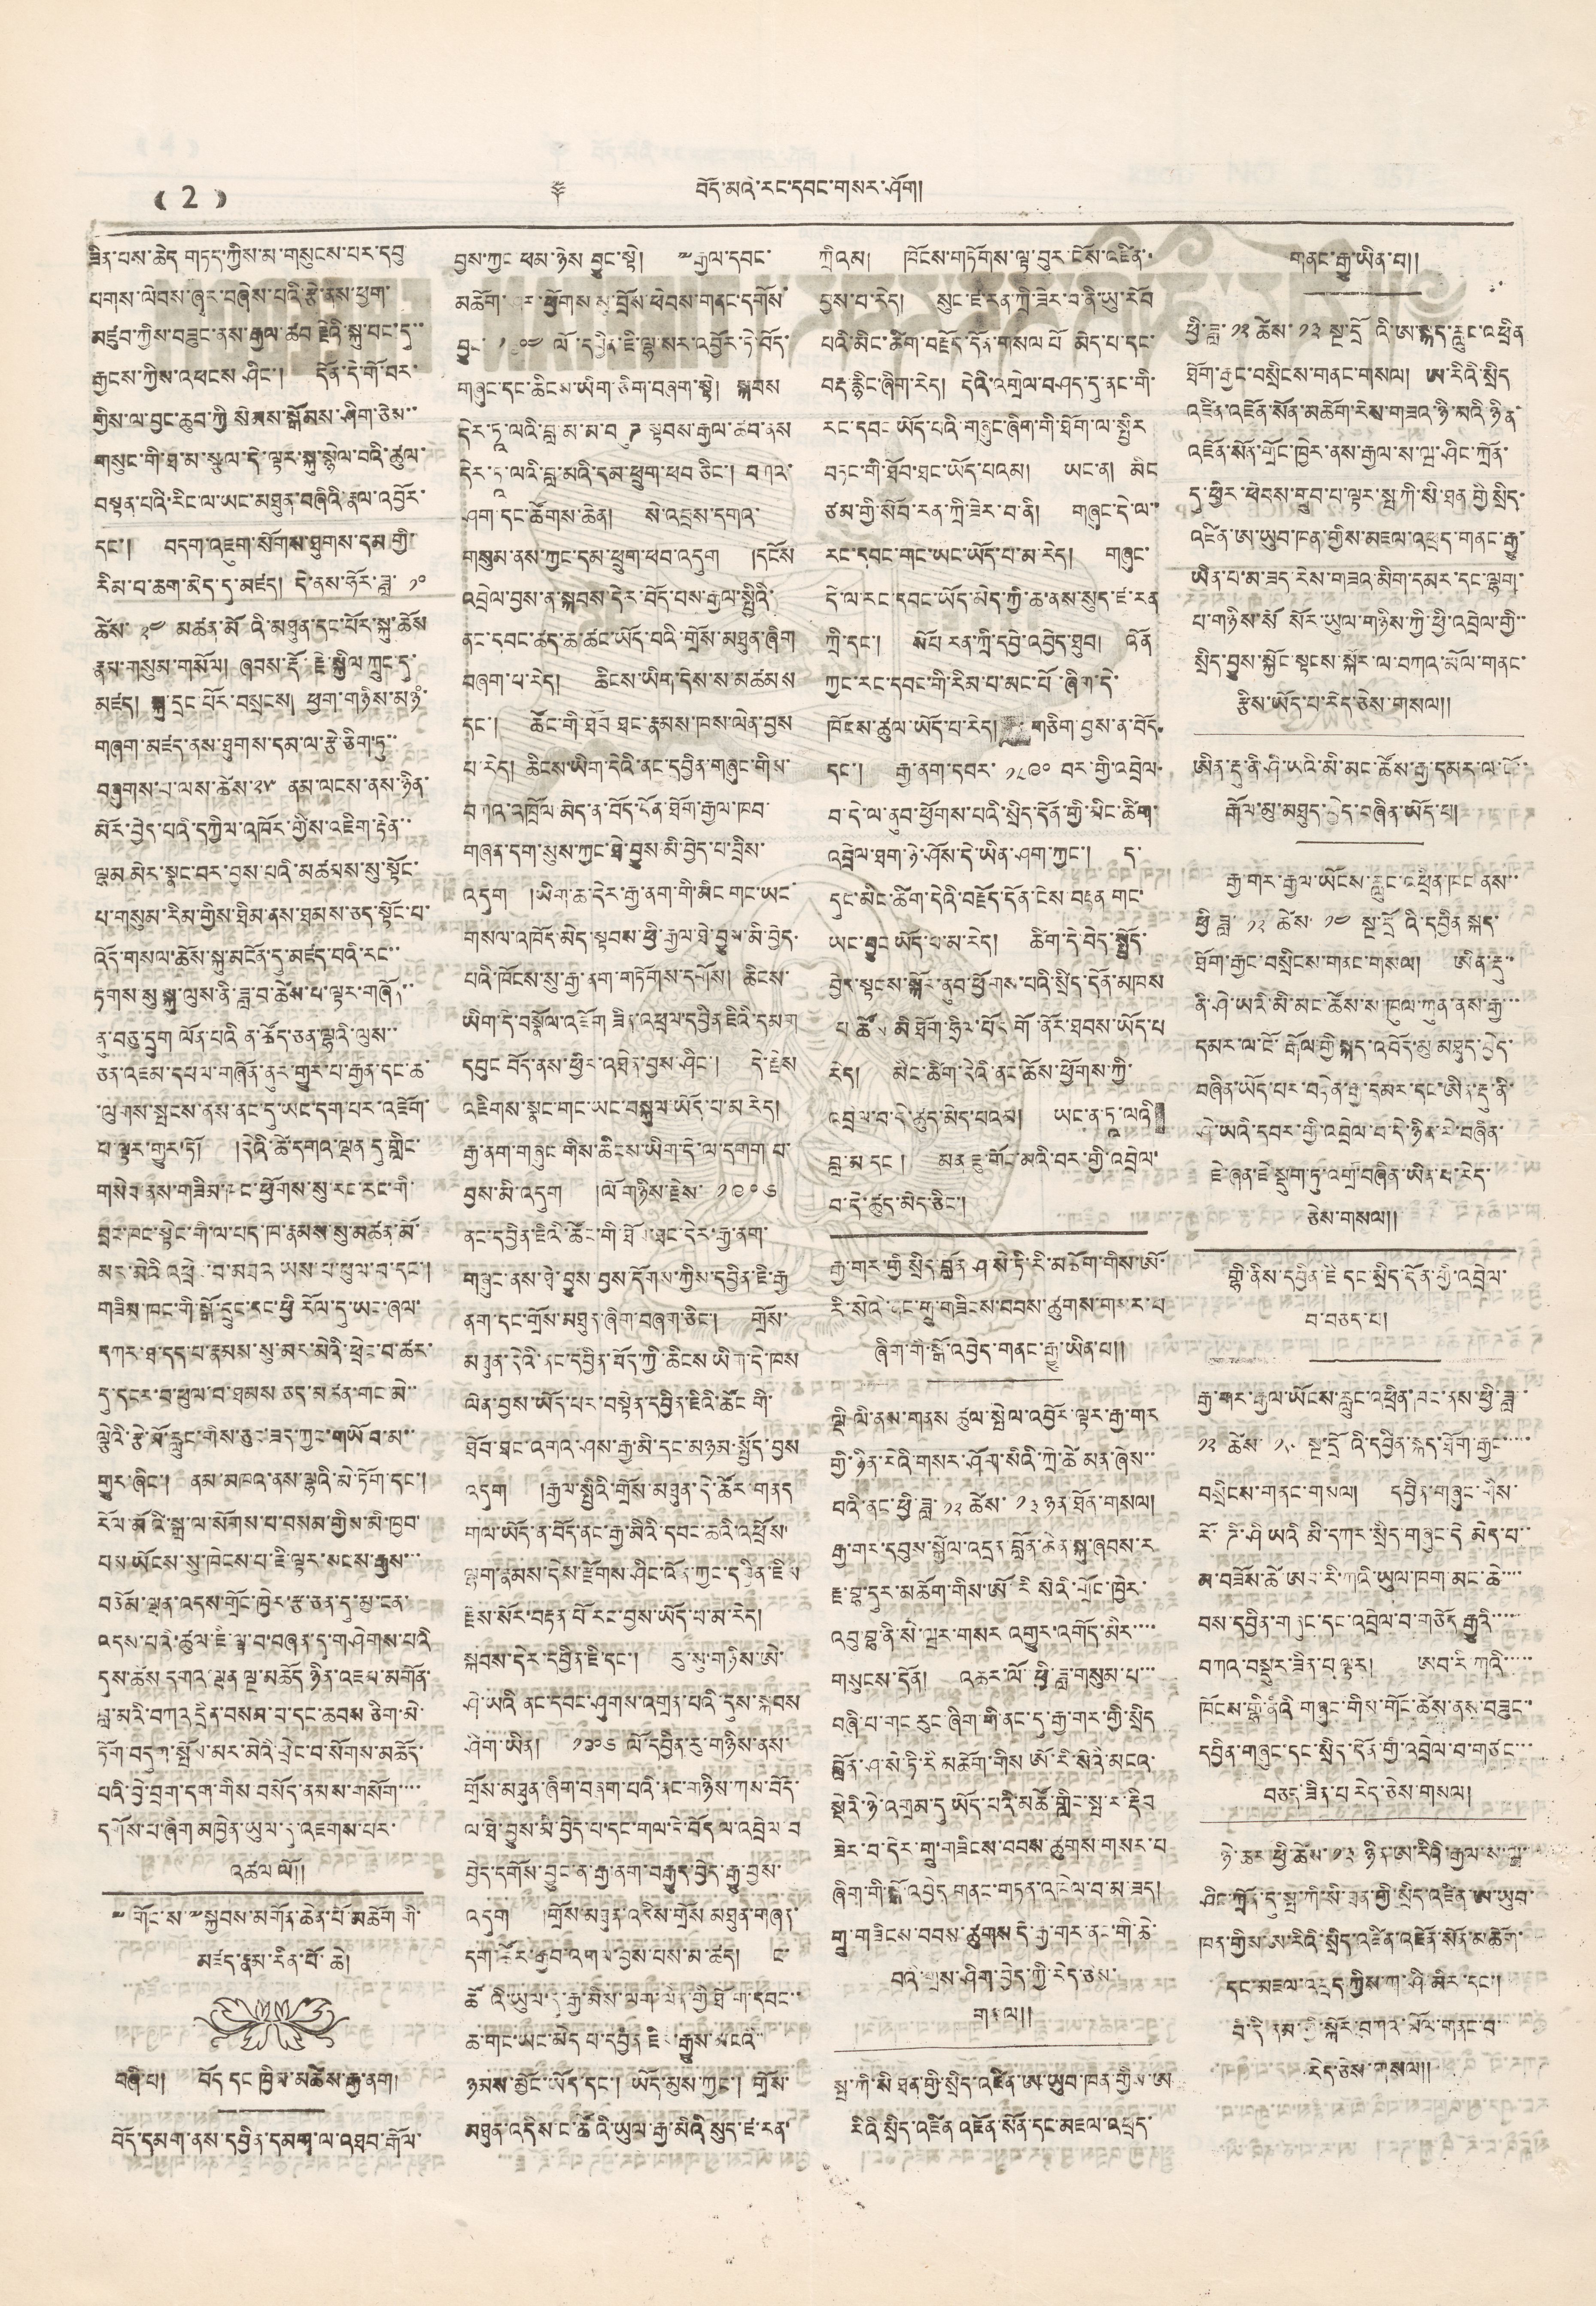(( 2 )) ༈ བོད་མའི་རང་དབང་གསར་ཤོག།
ཟིན་པས་ཆེད གཏད་ཀྱིས་མ་གསུངས་པར་དབུ་
པགས་ལེབས་ཞྭར་བཞེས་པའི་རྩེ་ནས་ཕྱག་
མཛུབ་ཀྱིས་བཟུང་ནས་རྒྱལ་ཚབ རྗེའི་སྐུ་པང་དུ་་
རྒྱངས་ཀྱིས་འཕངས ཤིང་། དོན་དེ་གོ་བར་
གྱིས་ལ་བྱང་ཆུབ་ཀྱི སེམས་སྒོམས་ཤིག་ཅེས་་
གསུང་གི་ཐ་མ་སྩལ་དེ་ལྟར་སྐུ་སྙེལ་བའི་ཚུལ་
བསྟན་པའི་རིང་ལ་ཡང་མཐུན་བཞིའི་རྣམ་འབྱོར་
དང་། བདག་འཇུག་སོགས་ཐུགས་དམ གྱི་
རིམ་པ་ཆག་མེད་དུ་མཛད། དེ་ནས་ཧོར་ཟླ་ ༡༠
ཚེས་ ༢༤ མཚམ་མོའི་མཐུན་དང་པོར་སྐུ་ཆོས
རྣམ་གསུམ་གསོལ། ཞབས་རྡོ་རྗེ་སྐྱིལ ཀྲུང་དུ་
མཛད། སྐུ་དྲང་པོར་བསྲངས། ཕྱག་གཉིས་མཉཾ་
གཞག་མཛད་ནས་ཐུགས་དམ་ལ་རྩེ་ཅིག་ཏུ་་
བཞུགས་པ་ལས་ཚེས་༢༥ ནམ་ལངས་ནས་ཉིན་
མོར་བྱེད་པའི་དཀྱིལ་འཁོར་གྱིས་འཇིག་རྟེན་་
ལྷམ མེར་སྣང་བར་བྱས་པའི་མཚམས་སུ་སྟོང་
པ་གསུམ་རིམ་གྱིས་ཐིམ་ནས་ཐམས་ཅད་སྟོང་པ་
འོད་གསལ་ཆོས་སྐུ་མངོན་དུ་མཛད་བའི་རང་་
རྟགས་སུ་སྐུ་ལུས་ནི་ཟླ་བ་ཚེས་པ་ལྟར་གཞོན་་
ནུ་བཅུ་དྲུག ལོན་པའི ན་ཚོད་ཅན་ལྷའི་ལུས་་
ཅན་འཇམ་དཔལ་གཞོན་ནུར་གྱུར་པ་རྒྱན་དང་ཆ་
་ལུགས་སྤངས་ནས་ནང་དུ་ཡང་དག་པར་འཇོག་
པ་ལྟར་གྱུར་ཏོ། །དེའི་ཚེ་དགའ་ལྡན དུ་གླིང་
གསེབ་ནས་གཟིམ་ཁང་ཕྱོགས་སུ་རང་རང་གི་
བྲང་ཁང་སྟེང་གི་ལ་པད་ཁ་རྣམས་སུ་མཚན་མོ་
མར་མེའི་འཕྲེང་བ་མཐའ ཡས་པ་ཕུལ་བ་དང་།
གཟིམ་ཁང་གི་སྒོ་དྲུང་དང་ཕྱི རོལ་དུ་ཡང་ཞལ་
དཀར་ཐ་དད་པ་རྣམས་སུ་མར་མེའི་ཕྲེང་བ་ཚར་
དུ་དངར་བ་ཕུལ་བ་ཐམས ཅད་མཚན་གང་མེ་་
ལྕེའི་རྩེ་མོ་རླུང་གིས་ཅུང་ཟད་ཀྱང་གཡོ བ་མ་་
གྱུར་ཞིང་། ནམ་མཁའ་ནས་ལྷའི་མེ་ཏོག་དང་།
རོལ་མོའི་སྒྲ་ལ་སོགས་པ་བསམ་གྱིས་མི་ཁྱབ་
པས་ཡོངས་སུ་ཁེངས་པ་ཇི་ལྟར་སངས་རྒྱས་་་
བཅོམ་ལྡན་འདས་གྲོང་ཁྱེར་རྩ་ཅན་དུ་མྱ་ངན་
འདས་པའི་ཚུལ་ཇི་ལྟ་བ་བཞན་དུ་གཤེགས་པའི་
དུས་ཚེས་དགའ་ལྡན ལྔ་མཆོད ཉིན་འཇམ་མགོན་
བླ་མའི་བཀའ དྲིན་བསམ་པ་དང་ཆབས ཅིག་མེ་
ཏོག་བདུག་སྤོམ་མར་མེའི་ཕྲེང་བ་སོགས་མཆོད་
པའི་བྱེ་བྲག་དག་གིས་བསོད་ནམས་གསོག་་་་
དགོས་པ་ཞིག་མཁྱེན་ཡུལ་དུ་འཇགས་པར་
འཚལ་ལོ།།
༸གོང་ས་༸སྐྱབས་མགོན་ཆེན་པོ་མཆོག གི་
མཛད་རྣམ་རིན་པོ་ཆེ།
བཞི་པ། བོད་དང་ཁྱིམ་མཚེས་རྒྱ་ནག།
བོད་དམག་ནས་དབྱིན་དམག་ལ་འཐབ་རྒོལ་
བྱས་ཀྱང་ཕབ་ཉེས་བྱུང་སྟེ། ༸རྒྱལ་དབང་
མཆོག་ཤར་ཕྱོགས་སུ་བྲོས་ཕེབས་གནང་དགོས
བྱུང་ ༡༩༠༤ ལོ་དབྱིན་ཇི་ལྷ་སར་འབྱོར་ཏེ་བོད་
གཞུང་དང་ཆིངས་ཡིག་ཅིག་བཞག་སྟེ། སྐབས
དེར་ཏཱ་ལའི་བླ་མ་མ་བདུཌ་སྟབས་རྒྱལ་ཚབ་ནས
དེར་ཏཱ་ལའི་བླ་མའི་དམ་ཕྲུག་ཕབ ཅིང་། བགའ་
ཤག་དང་ཚོགས་ཆེན། སེ་འབྲས་དགའ་
གསུམ་ནས་ཀྱང་དམ་ཕྲུག་ཕབ་འདུག །དངོས
འབྲེལ་བྱས་ན་སྐབས་དེར་བོད་པས་རྒྱལ་སྤྱིའི་
ནང་དབང་ཚད་ཆ་ཚང་ཡོད་པའི་གྲོས་མཐུན་ཞིག
བཞག་པ་རེད། ཆིངས་ཡིག་དེས་ས་མཚམས
དང་། ཚོང་གི་ཐོབ ཐང་རྣམས་ཁས་ལེན་བྱས
པ་རེད། ཆིངས་ཡིག་དེའི་ནང་དབྱིན་གཞུང་གིས་
བཀའ་འཁྲོལ་མེད་ན་བོད་དོན་ཐོག་རྒྱལ་ཁབ་
གཞན་དག་སུས་ཀྱང་ཐེ་བྱུས མི་བྱེད་པ་བྲིས་
འདུག །ཡིག་ཆ་དེར་རྒྱ་ནག་གི་མིང གང་ཡང་
གསལ་འཁོད་མེད་སྟབས་ཕྱི་རྒྱལ་ཐེ་བྱུས་མི་བྱེད
པའི་ཁོངས་སུ་རྒྱ་ནག་གཏོགས་དགོས། ཆིངས་
ཡིག་དེ་བསྣོལ་འཇོག ཟིན་འཕྲལ་དབྱིན ཇིའི་དམག
དཔུང བོད་ནས་ཕྱིར་འཐེན་བྱས་ཤིང་། དེ་རྗེས
འཇིགས་སྣང་གང་ཡང་བསྐུལ་ཡོད་པ་མ རེད།
རྒྱ་ནག་གཞུང་གིས་ཆིངས་ཡིག་དེ་ལ་དགག་པ་
བྱས་མི་འདུག ལོ་གཉིས་རྗེས་ ༡༩༠༦
ནང་དབྱིན་ཇིའི་ཚོང་གི་ཐོབ་ཐང་དེར་རྒྱ་ནག་
གཞུང་ནས་ཐེ་བྱུས་བྱས་དགོས་ཀྱིས་དབྱིན་ཇི་རྒྱ
ནག་དང་གྲོས་མཐུན་ཞིག་བཞག་ཅིང་། གྲོས་
མཐུན་དེའི་ནང་དབྱིན་བོད་ཀྱི་ཆིངས ཡིག་དེ་ཁས
ལེན་བྱས་ཡོད་པར་བསྟེན་དབྱིན་ཇིའི་ཚོང གི་
ཐོབ་ཐང་འགའ་ཤས་རྒྱ་མི་དང་མཉམ་སྤྱོད་བྱས
འདུག །རྒྱལ་སྤྱིའི་གྲོས་མཐུན་དེ་ཚོར་གནད
གལ་ཡོད་ན་བོད་ནང་རྒྱ་མིའི་དབང་ཆའི་འཕྲོས་
ལྷག་རྣམས་དེས་རྫོགས ཤིང་འོན་ཀྱང་དབྱིན་ཇིས་
རྗེས་སོར་བརྟན་པོ རང་བྱས་ཡོད་པ་མ་རེད།
སྐབས་དེར་དབྱིན་ཇི་དང་། རུ་སུ་གཉིས་ཨེ་
ཤེ་ཡའི་ནང་དབང་ཤུགས་འགྲན་པའི་དུས་སྐབས
ཤིག་ཡིན། ༡༩༠༦ ལོ་དབྱིན་རུ་གཉིས་ནས་
གྲོས་མཐུན་ཤིག་བཞག་པའི་ནང་གཉིས་ཀས་བོད་
ལ་ཐེ་བྱུས་མི་བྱེད་པ་དང་གལ་དེ་བོད་ལ་འབྲེལ་བ་
བྱེད་དགོས་བྱུང་ན་རྒྱ་ནག་བརྒྱུད་བྱེད་རྒྱུ་བྱས་
འདུག །གྲོས་མཐུན་འདིས་གྲོས་མཐུན་གཞན་
དག་ཚོར་རྒྱབ་འགལ་བྱས་པས་མ་ཚད། ང་
ཚོའི་ཡུལ་དུ་རྒྱ་མིས་ལག་ལེན་གྱི་ཐོག་དབང་་
ཆ་གང་ཡང་མེད པ་དབྱན ཇིར་རྒྱུས་མངའི་་
ཉམས་མྱོང་ཡོད་དང་། ཡོད་མུས་ཀྱང་། གྲོས་
མཐུན་འདིས་ང་ཚོའི་ཡུལ་རྒྱ་མའི སུད་ཛ་རན་
ཀྲིའམ། ཁོངས་གཏོགས་ལྟ་བུར་ངོས་འཛིན་
བྱས་པ་རེད། སུང་ཛ་རན་ཀྲི་ཟེར་བ་ནི་ཡུ་རོབ
པའི་མིང་ཚིག་བརྗོད་དོན་གསལ པོ་མེད་པ་དང་
བརྡ་རྙིང་ཞིག་རེད། དེའི་འགྲེལ་བཤད་དུ་ནང་གི་
རང་དབང ཡོད་པའི་གཞུང་ཞིག་གི་ཐོག་ལ་སྤྱིར
བཏང་གི་ཐོབ་ཐང་ཡོད་པའམ། ཡང་ན། མིང
ཙམ་གྱི་སོབ་རན་ཀྲི་ཟེར་བ་ནི། གཞུང་དེ་ལ་་
རང་དབང་གང་ཡོད་པ་མ་རེད། གཞུང་
དེ་ལ་རང་དབང་ཡོད་མེད་གྱི་ཆ་ནས་སུད་ཛ་རན
ཀྲི་དང་། སོབ རན་ཀྲི་དབྱེ་འབྱེད་ཐུབ། འོན
ཀྱང་རང་དབང་གི་རིམ་པ་མང་པོ་ཞིག་དེ་
ཁོངས་ཚུལ་ཡོད་པ་རེད་གཅིག་བྱས་ན་བོད
དང་། རྒྱ་ནག་དབང་ ༡༨༩༠ བར་གྱི་འབྲེལ་
བ་དེ་ལ་ནུབ་ཕྱོགས་པའི་སྲིད་དོན་གྱི་མིང་ཚིག་
འབྲེལ་ཐག་ཉེ་ཤོས་དེ་ཡིན་ཤག་ཀྱང་། ད་
དུང་མིང་ཚིག་དེའི་བརྗོད་དོན་ངེས་བརྟན གང་
ཡང་བྱུང་ཡོད་པ་མ་རེད། ཚིག་དེ་བདེ་སྤྱོད་
བྱེད་སྟངས་སྐོར་ནུབ་ཕྱོགས་པའི་སྲིད་དོན་མཁས
པ་ཚོས་མི ཐོག་ཧྲིལ་པོར གོ་ནོར་ཐབས་ཡོད་པ
རེད། མིང་ཚིག་དེའི་ནང་ཆོས་ཕྱོགས་ཀྱི་
འབྲེལ་བ་དེ་ཚུད་མེད་པའམ། ཡང་ན་ཏཱ་ལའི་
བླ་མ དང་། མན ཇུ་གོང་མའི་བར་གྱི་འབྲེལ་
བ་དེ་ཚུད་མེད་ཅིང་།
རྒྱ་གར་གྱི སྲིད་བློན ཤ་སེ་ཏི་རི་མཆོག་གིས་ཨོ་
རི་སའི་ནང་གྲུ་གཟིངས་བབས་ཚུགས་གསར་པ
ཞིག་གི་སྒོ་འབྱེད་གནང་རྒྱུ་ཡིན་པ།།
ལྡི ལི་ནས་གནས ཚུལ་སྤེལ་འབྱོར་ལྟར་རྒྱ་གར
གྱི་ཉིན་རེའི་གསར་ཤོག་སིའི་ཀྲེ་ཚེ མན་ཞེས་་
བའི་ནང་ཕྱི་ཟླ་ ༡༢ ཚེས་ ༡༣ ཉན་ཐོན་གསལ།
རྒྱ་གར་དབུས་སྐྱོལ་འདྲན་བློན་ཆེན་སྐུ་ཞབས་ར
རྗ་བྷ་དུར་མཆོག་གིས་ཨོ་རི སའི་གྲོང་ཁྱེར་
འབུ་བྷ་ནི་སེ་ཝར་གསར འགྱུར་འགོད་མིར་་་་
གསུངས་དོན། འཆར་ལོ་ཕྱི་ཟླ་གསུམ་པ་་་
བཞི་པ་གང རུང་ཞིག་ཧོ་ནང་དུ་རྒྱ་གར་གྱི་སྲིད
བློན་ཤ་སེ་ཏི་རི མཆོག་གིས ཨོ་རི་སའི་མངའ་
སྡེའི་ཉེ་འགྲམ་དུ ཡོད་པའི་མཚོ་གླིང་སྤ་ར་རྡིབ
ཟེར་བ་དེར་གྲུ་གཟིངས་བབས་ཚུགས་གསར་པ
ཞིག་གི་སྒོ་འབྱེད གནང་གཏན་འཁེལ་བ་མ་ཟད།
གྲུ་གཟིངས་བབས་ཚུགས་དེ་རྒྱ་གར་ནང་གི་ཆེ་
བའི་གྲས་ཤིག་བྱེད་གྱི་རེད་ཅེས་
གསལ།།
སྤ་ཀི་སི་ཐན་གྱི་སྲིད་འཛིན་ཨ་ཡུབ་ཁན་གྱིས་ཨ
རིའི་སྲིད་འཛིན འཇོན་སོན་དང་འཇལ་འཕྲད་
གནང་རྒྱུ་ཡིན་བ༎
ཕྱི་ཟླ་ ༡༢ ཚེས་ ༡༣ སྔ་དྲོའི་ཨ་སྐད་རླུང་འཕྲིན
ཐོག་རྒྱང་བསྲིངས་གནང་གསལ། ཨ་རིའི་སྲིད
འཛིན་འཇོན་སོན་མཆོག་རེས་གཟའ་ཉི་མའི་ཉིན་
འཇོན་སོན་གྲོང་ཁྱེར་ནས་རྒྱལ་ས་ཝ་ཤིང་ཀྲོན་
དུ་ཕྱིར་ཕེབས་གྲུབ་པ་ལྟར་སྤ་ཀི་སི་ཐན་གྱི སྲིད་
འཛིན་ཨ་ཡུབ་ཁན་གྱིས་མཇལ་འཕྲད་གནང་རྒྱུ་
ཡིན་པ་མ་ཟད་རེས་གཟའ་མིག་དམར་དང་ལྷག་
པ་གཉིས་སོ སོར་ཡུལ་གཉིས་ཀྱི་ཕྱི་འབྲེལ་གྱི་་
སྲིད་བྱུས་སྐྱོང་སྟངས་སྐོར་ལ་བཀའ་མོལ་གནང་
རྩིས་ཡོད་པ་རེད་ཅེས་གསལ།།
ཨིན་རྡུ་ནི་ཤི་ཡའི་མི་མང་ཚོས་རྒྱ་དམར་ལ་ངོ་་
རྒོལ་མུ་མཐུད་བྱེད་བཞིན་ཡོད་པ།
རྒྱ་གར་རྒྱལ་ཡོངས་རླུང་འཕྲིན་ཁང་ནས་་
ཕྱི ཟླ་ ༡༢ ཚེས་ ༡༤ སྔོ་དྲོའི་དབྱིན་སྐད་
ཐོག་རྒྱང་བསྲིངས་གནང་གསལ། ཨིན་རྡུ་་
ནི་ཤེ་ཡའི་མི་མང་ཚོས་ས་ཁུལ་ཀུན་ནས་རྒྱ་་་
དམར་ལ་ངོ་རྒོལ་གྱི་སྐད་འབོད་མུ་མཐུད་བྱེད་
བཞིན་ཡོད་པར་བརྟེན་རྒྱ་དམར་དང་ཨིན་རྡུ་ནི་
ཤེ་ཡའི་དབར་གྱི་འབྲེལ་བ་དེ་ཉིན་རེ་བཞིན་
ཇེ་ཞན་སྡུག་ཏུ་འགྲོ་བཞིན་ཡིན་པ་རེད་
ཅེས་གསལ།།
གྷི་ནིས་དབྱིན་ཇི་དང་སྲིད་དོན་གྱི་འབྲེལ་
པ་བཅད་པ།
རྒྱ་གར་རྒྱལ་ཡོངས་རླུང་འཕྲིན་ཁང་ནས་ཕྱི་ཟླ་
༡༢ ཚེས་ ༡༥ སྔ་དྲོའི་དབྱིན་སྐད་ཐོག་རྒྱང་་་་
བསྲིངས་གནང་གསལ། དབྱིན་གཞིང་གིས་
རོ་ཌི་ཤི ཡའི་མི་དཀར་སྲིད་གཞུང་དེ མེད་པ་་
མ་བཟོས་ཚེ་ཨབ་རི་ཀའི་ཡུལ་ཁག་མང་ཆེ་་་་་
བས་དབྱིན་གཞུང་དང་འབྲེལ་བ་གཅོད་རྒྱུའི་་་་་
བཀའ་བསྡུར་ཟིན་པ ལྟར། ཨབ་རི་ཀའི་་་་་་
ཁོངས་གྷི་ནཾའི གཞུང་གིས་གོང་ཚེས་ནས་བཟུང་་
དབྱིན་གཞུང་དང་སྲིད་དོན་གྱི་འབྲེལ་བ་གཙང་་་
བཅད་ཟིན་པ་རེད་ཅེས་གསལ།
ཉེ་ཆར་ཕྱི་ཚེས་ ༡༣ ཉིན་ཨ་རིའི་རྒྱལ་ས་ཝ་
ཤིང་ཀྲོན་དུ་སྤ་ཀི་སི་ཐན་གྱི་སྲིད་འཛིན་ཨ་ཡུབ་
ཁན་གྱིས་ཨ་རིའི་སྲིད་འཛིན་འཇོན་སོན་མཆོག་
དང་མཇལ་འཕྲད་ཀྱིས་ཀ་ཤི་མིར་དང་།
བི་དི་ནམ་གྱི་སྐོར་བཀའ་མོལ་གནང་བ་
རེད་ཅེས་གསལ།།
